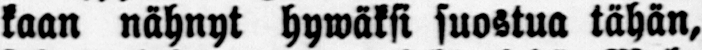kaan nähnyt hywäksi suostua tähän,
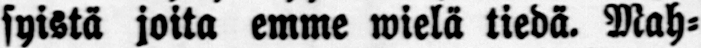syistä joita emme wielä tiedä. Mah-
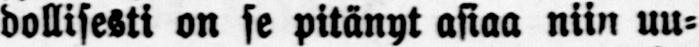dollisesti on se pitänyt asiaa niin uu-
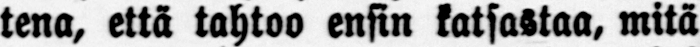tena, että tahtoo ensin katsastaa, mitä
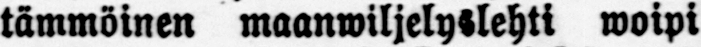tämmöinen maanwiljelyslehti woipi
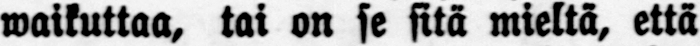waikuttaa, tai on se sitä mieltä, että
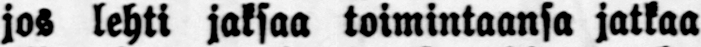jos lehti jaksaa toimintaansa jatkaa
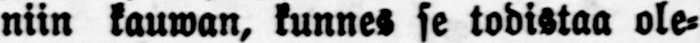niin kauwan, kunnes se todistaa ole-
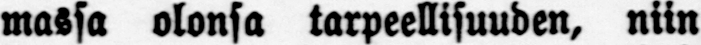massa olonsa tarpeellisuuden, niin
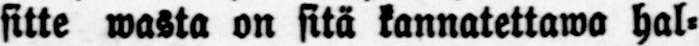sitte wasta on sitä kannatettawa hal-
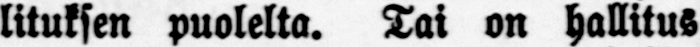lituksen puolelta. Tai on hallitus
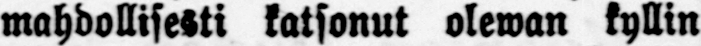mahdollisesti katsonut olewan kyllin
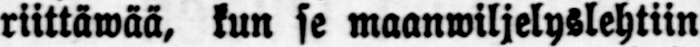riittäwää, kun se maanwiljelyslehtiin
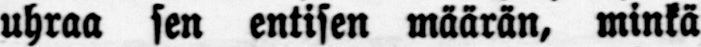uhraa sen entisen määrän, minkä
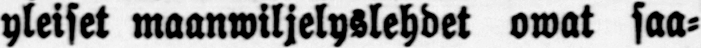yleiset maanwiljelyslehdet owat saa-
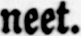neet.
